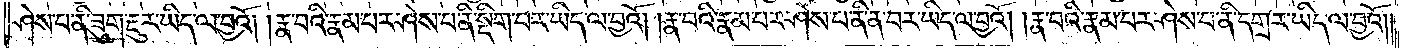ཤེས་པ་ནི་ཟུག་རྔུར་ཡིད་ལ་བྱའོ། །རྣ་བའི་རྣམ་པར་ཤེས་པ་ནི་སྡིག་པར་ཡིད་ལ་བྱའོ། །རྣ་བའི་རྣམ་པར་ཤེས་པ་ནི་ན་བར་ཡིད་ལ་བྱའོ། །རྣ་བའི་རྣམ་པར་ཤེས་པ་ནི་དགྲར་ཡིད་ལ་བྱའོ། །
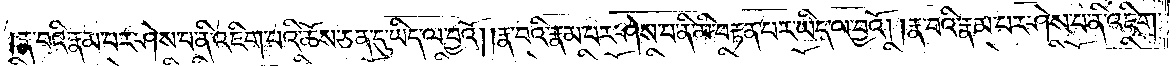རྣ་བའི་རྣམ་པར་ཤེས་པ་ནི་འཇིག་པའི་ཆོས་ཅན་དུ་ཡིད་ལ་བྱའོ། །རྣ་བའི་རྣམ་པར་ཤེས་པ་ནི་མི་བརྟན་པར་ཡིད་ལ་བྱའོ། །རྣ་བའི་རྣམ་པར་ཤེས་པ་ནི་འཇིག་
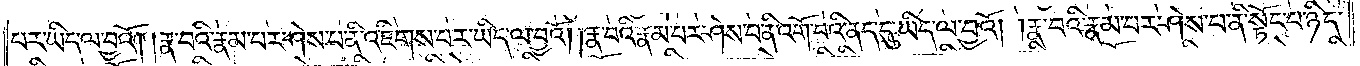པར་ཡིད་ལ་བྱའོ། །རྣ་བའི་རྣམ་པར་ཤེས་པ་ནི་འཇིགས་པར་ཡིད་ལ་བྱའོ། །རྣ་བའི་རྣམ་པར་ཤེས་པ་ནི་འགོ་བའི་ནད་དུ་ཡིད་ལ་བྱའོ། །རྣ་བའི་རྣམ་པར་ཤེས་པ་ནི་སྟོང་པ་ཉིད་
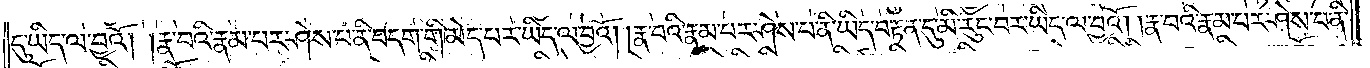དུ་ཡིད་ལ་བྱའོ། །རྣ་བའི་རྣམ་པར་ཤེས་པ་ནི་བདག་གི་མེད་པར་ཡིད་ལ་བྱའོ། །རྣ་བའི་རྣམ་པར་ཤེས་པ་ནི་ཡིད་བརྟན་དུ་མི་རུང་བར་ཡིད་ལ་བྱའོ། །རྣ་བའི་རྣམ་པར་ཤེས་པ་ནི་
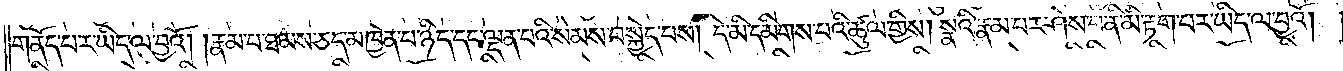གནོད་པར་ཡིད་ལ་བྱའོ། །རྣམ་པ་ཐམས་ཅད་མཁྱེན་པ་ཉིད་དང་ལྡན་པའི་སེམས་བསྐྱེད་པས། དེ་མི་དམིགས་པའི་ཚུལ་གྱིས། སྣའི་རྣམ་པར་ཤེས་པ་ནི་མི་རྟག་པར་ཡིད་ལ་བྱའོ། །
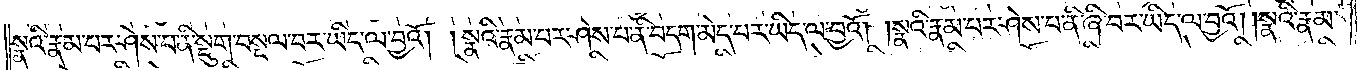སྣའི་རྣམ་པར་ཤེས་པ་ནི་སྡུག་བསྔལ་བར་ཡིད་ལ་བྱའོ། །སྣའི་རྣམ་པར་ཤེས་པ་ནི་བདག་མེད་པར་ཡིད་ལ་བྱའོ། །སྣའི་རྣམ་པར་ཤེས་པ་ནི་ཞི་བར་ཡིད་ལ་བྱའོ། །སྣའི་རྣམ་
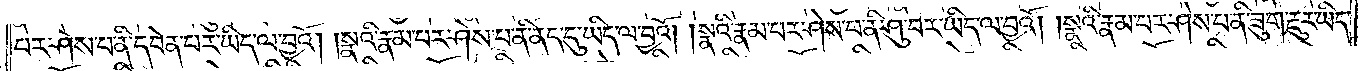པར་ཤེས་པ་ནི་དབེན་པར་ཡིད་ལ་བྱའོ། །སྣའི་རྣམ་པར་ཤེས་པ་ནི་ནད་དུ་ཡིད་ལ་བྱའོ། །སྣའི་རྣམ་པར་ཤེས་པ་ནི་ཤུ་བར་ཡིད་ལ་བྱའོ། །སྣའི་རྣམ་པར་ཤེས་པ་ནི་ཟུག་རྔུར་ཡིད་
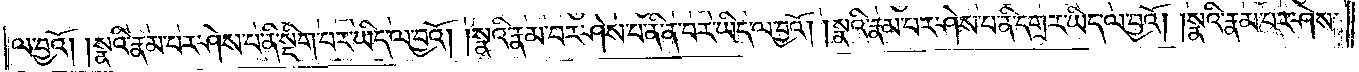ལ་བྱའོ། །སྣའི་རྣམ་པར་ཤེས་པ་ནི་སྡིག་པར་ཡིད་ལ་བྱའོ། །སྣའི་རྣམ་པར་ཤེས་པ་ནི་ན་བར་ཡིད་ལ་བྱའོ། །སྣའི་རྣམ་པར་ཤེས་པ་ནི་དགྲར་ཡིད་ལ་བྱའོ། །སྣའི་རྣམ་པར་ཤེས་
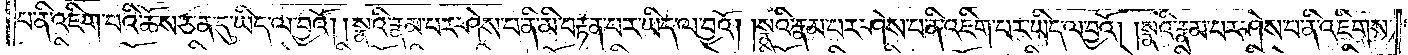པ་ནི་འཇིག་པའི་ཆོས་ཅན་དུ་ཡིད་ལ་བྱའོ། །སྣའི་རྣམ་པར་ཤེས་པ་ནི་མི་བརྟན་པར་ཡིད་ལ་བྱའོ། །སྣའི་རྣམ་པར་ཤེས་པ་ནི་འཇིག་པར་ཡིད་ལ་བྱའོ། །སྣའི་རྣམ་པར་ཤེས་པ་ནི་འཇིགས་
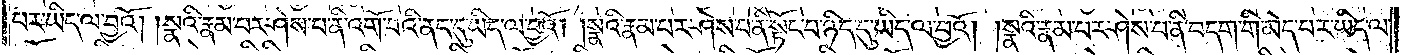པར་ཡིད་ལ་བྱའོ། །སྣའི་རྣམ་པར་ཤེས་པ་ནི་འགོ་བའི་ནད་དུ་ཡིད་ལ་བྱའོ། །སྣའི་རྣམ་པར་ཤེས་པ་ནི་སྟོང་པ་ཉིད་དུ་ཡིད་ལ་བྱའོ། །སྣའི་རྣམ་པར་ཤེས་པ་ནི་བདག་གི་མེད་པར་ཡིད་ལ་
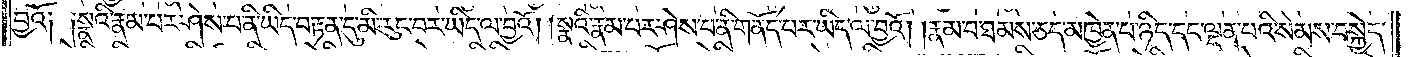བྱའོ༏ ༏སྣའི་རྣམ་པར་ཤེས་པ་ནི་ཡིད་བརྟན་དུ་མི་རུང་བར་ཡིད་ལ་བྱའོ། །སྣའི་རྣམ་པར་ཤེས་པ་ནི་གནོད་པར་ཡིད་ལ་བྱའོ། །རྣམ་པ་ཐམས་ཅད་མཁྱེན་པ་ཉིད་དང་ལྡན་པའི་སེམས་བསྐྱེད་
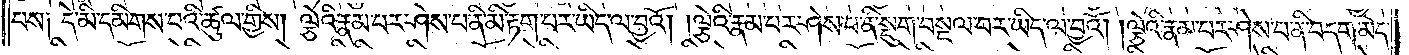པས༏ དེ་མི་དམིགས་པའི་ཚུལ་གྱིས། ལྕེའི་རྣམ་པར་ཤེས་པ་ནི་མི་རྟག་པར་ཡིད་ལ་བྱའོ། །ལྕེའི་རྣམ་པར་ཤེས་པ་ནི་སྡུག་བསྔལ་བར་ཡིད་ལ་བྱའོ། །ལྕེའི་རྣམ་པར་ཤེས་པ་ནི་བདག་མེད་
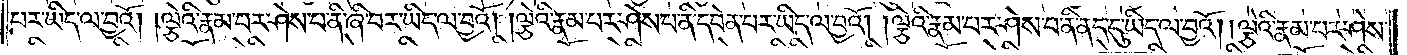པར་ཡིད་ལ་བྱའོ། །ལྕེའི་རྣམ་པར་ཤེས་པ་ནི་ཞི་བར་ཡིད་ལ་བྱའོ། །ལྕེའི་རྣམ་པར་ཤེས་པ་ནི་དབེན་པར་ཡིད་ལ་བྱའོ། །ལྕེའི་རྣམ་པར་ཤེས་པ་ནི་ནད་དུ་ཡིད་ལ་བྱའོ། །ལྕེའི་རྣམ་པར་ཤེས་
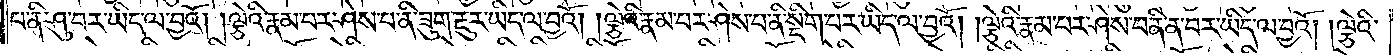པ་ནི་ཤུ་བར་ཡིད་ལ་བྱའོ། །ལྕེའི་རྣམ་པར་ཤེས་པ་ནི་ཟུག་རྔུར་ཡིད་ལ་བྱའོ། །ལྕེའི་རྣམ་པར་ཤེས་པ་ནི་སྡིག་པར་ཡིད་ལ་བྱའོ། །ལྕེའི་རྣམ་པར་ཤེས་པ་ནི་ན་བར་ཡིད་ལ་བྱའོ། །ལྕེའི་
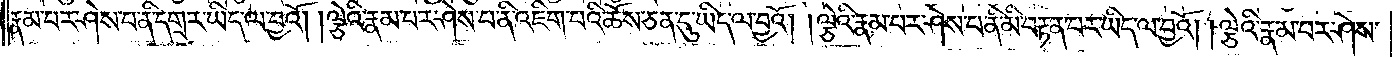རྣམ་པར་ཤེས་པ་ནི་དགྲར་ཡིད་ལ་བྱའོ། །ལྕེའི་རྣམ་པར་ཤེས་པ་ནི་འཇིག་པའི་ཆོས་ཅན་དུ་ཡིད་ལ་བྱའོ། །ལྕེའི་རྣམ་པར་ཤེས་པ་ནི་མི་བརྟན་པར་ཡིད་ལ་བྱའོ། ལྕེའི་རྣམ་པར་ཤེས་
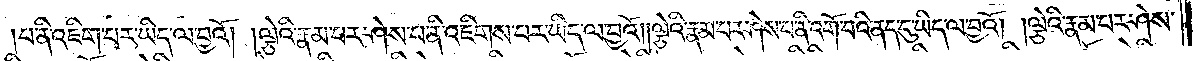པ་ནི་འཇིག་པར་ཡིད་ལ་བྱའོ། །ལྕེའི་རྣམ་པར་ཤེས་པ་ནི་འཇིགས་པར་ཡིད་ལ་བྱའོ། །ལྕེའི་རྣམ་པར་ཤེས་པ་ནི་འགོ་བའི་ནང་དུ་ཡིད་ལ་བྱའོ། །ལྕེའི་རྣམ་པར་ཤེས་
